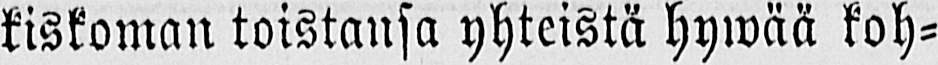kiskoman toistansa yhteistä hywää koh-
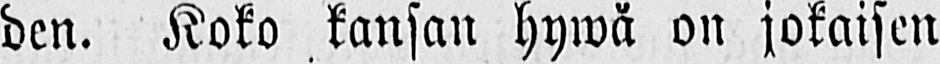den. Koko kansan hywä on jokaisen
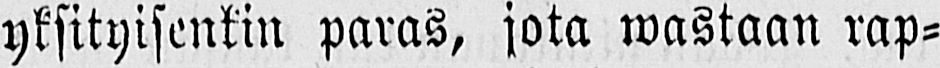yksityisenkin paras, jota wastaan rap-
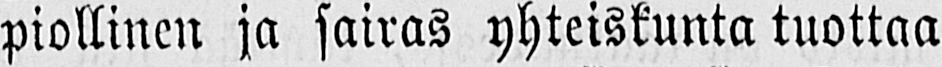piollinen ja sairas yhteiskunta tuottaa
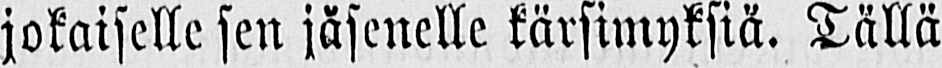jokaiselle sen jäsenelle kärsimyksiä. Tällä
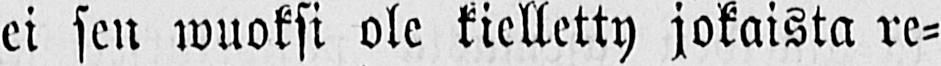ei sen wuoksi ole kielletty jokaista re-
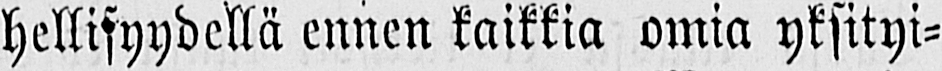hellisyydellä ennen kaikkia omia yksityi-
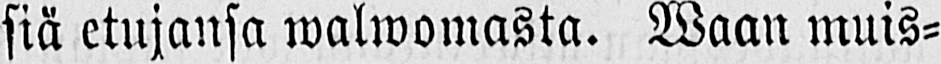siä etujansa walwomasta. Waan muis-
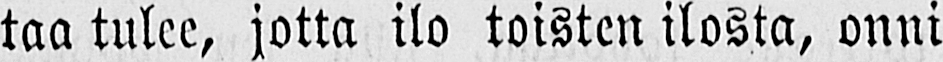taa tulee, jotta ilo toisten ilosta, onni
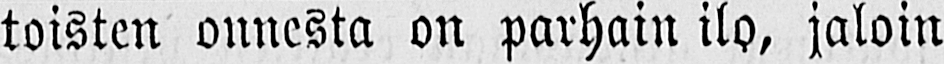toisten onnesta on parhain ilo, jaloin
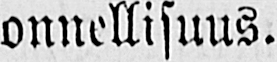onnellisuus.
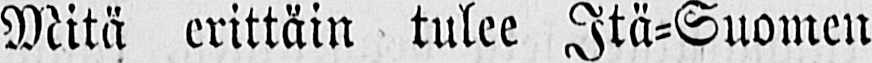Mitä erittäin tulee Itä-Suomen
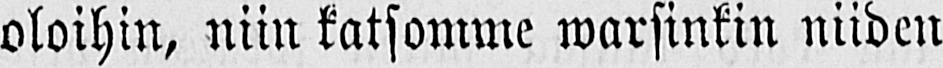oloihin, niin katsomme warsinkin niiden
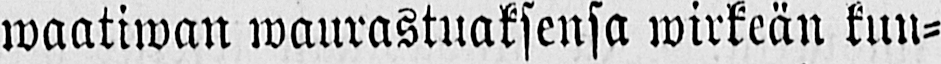waatiwan waurastuaksensa wirkeän kuu-
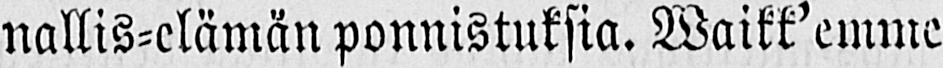nallis-elämän ponnistuksia. Waikk'emme
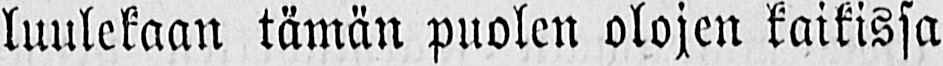luulekaan tämän puolen olojen kaikissa
